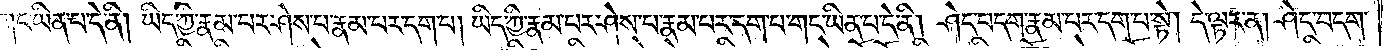གང་ཡིན་པ་དེ་ནི། ཡིད་ཀྱི་རྣམ་པར་ཤེས་པ་རྣམ་པར་དག་པ། ཡིད་ཀྱི་རྣམ་པར་ཤེས་པ་རྣམ་པར་དག་པ་གང་ཡིན་པ་དེ་ནི། ཤེད་བདག་རྣམ་པར་དག་པ་སྟེ། དེ་ལྟར་ན། ཤེད་བདག་
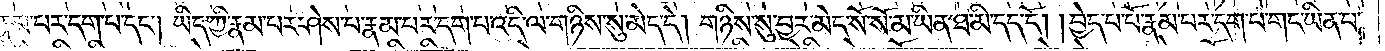རྣམ་པར་དག་པ་དང༌། ཡིད་ཀྱི་རྣམ་པར་ཤེས་པ་རྣམ་པར་དག་པ་འདི་ལ་གཉིས་སུ་མེད་དེ། གཉིས་སུ་བྱར་མེད་སོ་སོ་མ་ཡིན་ཐ་མི་དད་དོ། །བྱེད་པ་པོ་རྣམ་པར་དག་པ་གང་ཡིན་པ་
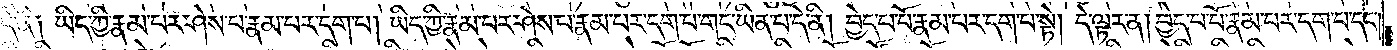དེ་ནི། ཡིད་ཀྱི་རྣམ་པར་ཤེས་པ་རྣམ་པར་དག་པ། ཡིད་ཀྱི་རྣམ་པར་ཤེས་པ་རྣམ་པར་དག་པ་གང་ཡིན་པ་དེ་ནི། བྱེད་པ་པོ་རྣམ་པར་དག་པ་སྟེ། དེ་ལྟར་ན། བྱེད་པ་པོ་རྣམ་པར་དག་པ་དང༌།
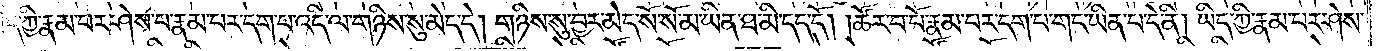ཡིད་ཀྱི་རྣམ་པར་ཤེས་པ་རྣམ་པར་དག་པ་འདི་ལ་གཉིས་སུ་མེད་དེ། གཉིས་སུ་བྱར་མེད་སོ་སོ་མ་ཡིན་ཐ་མི་དད་དོ། །ཚོར་བ་པོ་རྣམ་པར་དག་པ་གང་ཡིན་པ་དེ་ནི། ཡིད་ཀྱི་རྣམ་པར་ཤེས་
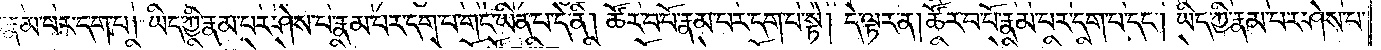པ་རྣམ་པར་དག་པ། ཡིད་ཀྱི་རྣམ་པར་ཤེས་པ་རྣམ་པར་དག་པ་གང་ཡིན་པ་དེ་ནི། ཚོར་བ་པོ་རྣམ་པར་དག་པ་སྟེ། དེ་ལྟར་ན། ཚོར་བ་པོ་རྣམ་པར་དག་པ་དང༌། ཡིད་ཀྱི་རྣམ་པར་ཤེས་པ་
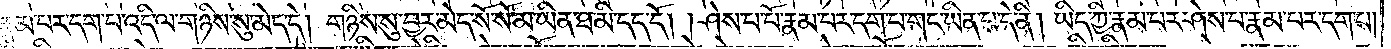རྣམ་པར་དག་པ་འདི་ལ་གཉིས་སུ་མེད་དེ། གཉིས་སུ་བྱར་མེད་སོ་སོ་མ་ཡིན་ཐ་མི་དད་དོ༎ ཤེས་པ་པོ་རྣམ་པར་དག་པ་གང་ཡིན་པ་དེ་ནི། ཡིད་ཀྱི་རྣམ་པར་ཤེས་པ་རྣམ་པར་དག་པ།
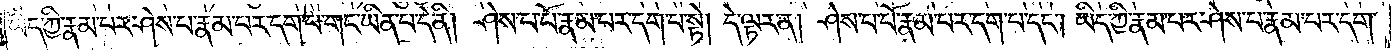ཡིད་ཀྱི་རྣམ་པར་ཤེས་པ་རྣམ་པར་དག་པ་གང་ཡིན་པ་དེ་ནི། ཤེས་པ་པོ་རྣམ་པར་དག་པ་སྟེ། དེ་ལྟར་ན། ཤེས་པ་པོ་རྣམ་པར་དག་པ་དང༌། ཡིད་ཀྱི་རྣམ་པར་ཤེས་པ་རྣམ་པར་དག་
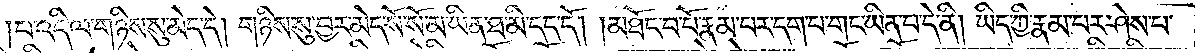པ་འདི་ལ་གཉིས་སུ་མེད་དེ། གཉིས་སུ་བྱར་མེད་སོ་སོ་མ་ཡིན་ཐ་མི་དད་དོ། །མཐོང་བ་པོ་རྣམ་པར་དག་པ་གང་ཡིན་པ་དེ་ནི། ཡིད་ཀྱི་རྣམ་པར་ཤེས་པ་
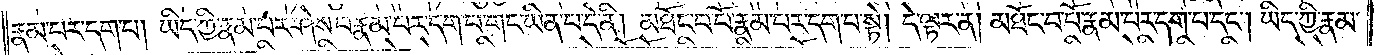རྣམ་པར་དག་པ། ཡིད་ཀྱི་རྣམ་པར་ཤེས་པ་རྣམ་པར་དག་པ་གང་ཡིན་པ་དེ་ནི། མཐོང་བ་པོ་རྣམ་པར་དག་པ་སྟེ། དེ་ལྟར་ན། མཐོང་བ་པོ་རྣམ་པར་དག་པ་དང༌། ཡིད་ཀྱི་རྣམ་
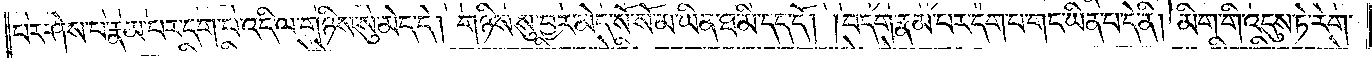པར་ཤེས་པ་རྣམ་པར་དག་པ་འདི་ལ་གཉིས་སུ་མེད་དེ། གཉིས་སུ་བྱར་མེད་སོ་སོ་མ་ཡིན་ཐ་མི་དད་དོ། །བདག་རྣམ་པར་དག་པ་གང་ཡིན་པ་དེ་ནི། མིག་གི་འདུས་ཏེ་རེག་
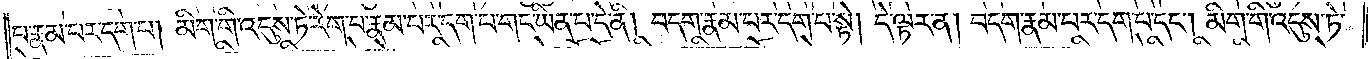པ་རྣམ་པར་དག་པ། མིག་གི་འདུས་ཏེ་རེག་པ་རྣམ་པར་དག་པ་གང་ཡིན་པ་དེ་ནི། བདག་རྣམ་པར་དག་པ་སྟེ། དེ་ལྟར་ན། བདག་རྣམ་པར་དག་པ་དང༌། མིག་གི་འདུས་ཏེ་
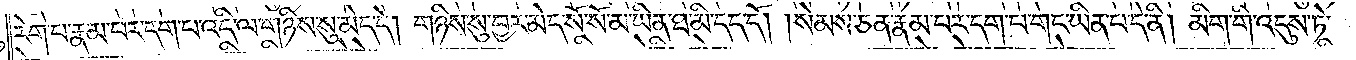རེག་པ་རྣམ་པར་དག་པ་འདི་ལ་གཉིས་སུ་མེད་དེ། གཉིས་སུ་བྱར་མེད་སོ་སོ་མ་ཡིན་ཐ་མི་དད་དོ། །སེམས་ཅན་རྣམ་པར་དག་པ་གང་ཡིན་པ་དེ་ནི། མིག་གི་འདུས་ཏེ་
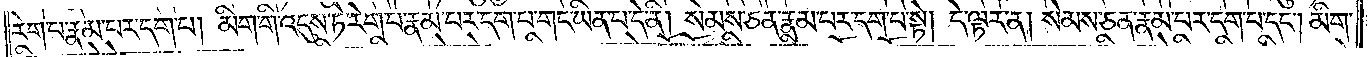རེག་པ་རྣམ་པར་དག་པ། མིག་གི་འདུས་ཏེ་རེག་པ་རྣམ་པར་དག་པ་གང་ཡིན་པ་དེ་ནི། སེམས་ཅན་རྣམ་པར་དག་པ་སྟེ། དེ་ལྟར་ན། སེམས་ཅན་རྣམ་པར་དག་པ་དང༌། མིག་
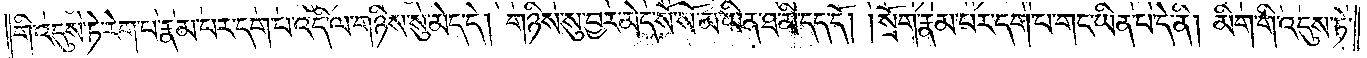གི་འདུས་ཏེ་རེག་པ་རྣམ་པར་དག་པ་འདི་ལ་གཉིས་སུ་མེད་དེ། གཉིས་སུ་བྱར་མེད་སོ་སོ་མ་ཡིན་ཐ་མི་དད་དོ། །སྲོག་རྣམ་པར་དག་པ་གང་ཡིན་པ་དེ་ནི། མིག་གི་འདུས་ཏེ་
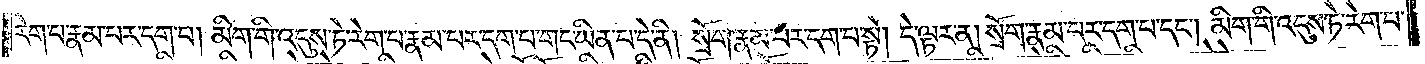རེག་པ་རྣམ་པར་དག་པ། མིག་གི་འདུས་ཏེ་རེག་པ་རྣམ་པར་དག་པ་གང་ཡིན་པ་དེ་ནི། སྲོག་རྣམ་པར་དག་པ་སྟེ། དེ་ལྟར་ན། སྲོག་རྣམ་པར་དག་པ་དང༌། མིག་གི་འདུས་ཏེ་རེག་པ་
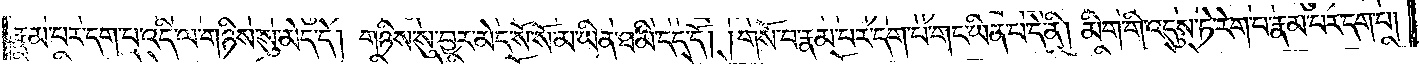རྣམ་པར་དག་པ་འདི་ལ་གཉིས་སུ་མེད་དེ། གཉིས་སུ་བྱར་མེད་སོ་སོ་མ་ཡིན་ཐ་མི་དད་དོ། །གསོ་བ་རྣམ་པར་དག་པ་གང་ཡིན་པ་དེ་ནི། མིག་གི་འདུས་ཏེ་རེག་པ་རྣམ་པར་དག་པ།
